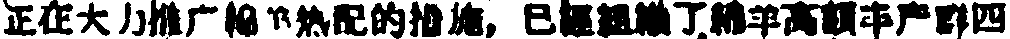正在大力推广綿羊热配的指施，已經組織了綿羊高額丰产群四
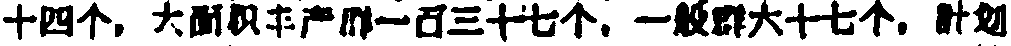十四个，大面积丰产群一百三十七个，一般群六十七个，計划
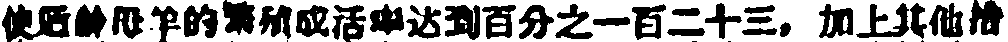使适龄母羊的繁殖成活率达到百分之一百三十三，加上其他措
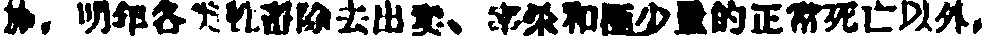施，明年各类社畜除去出卖、宰杀和很少量的正常死亡以外，
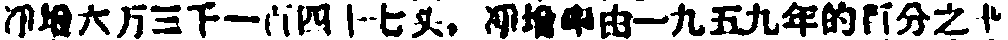淨增六万三千一百四十七头，淨增率由一九五九年的百分之十
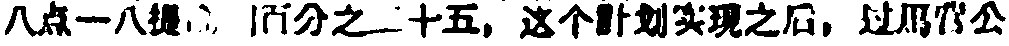八点一八提高 百分之二十五，这个計划实現之后，过馬营公
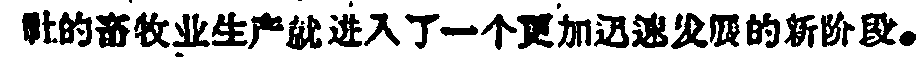社的畜牧业生产就进入了一个更加迅速发展的新阶段。
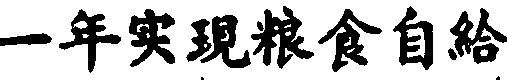一年实現粮食自給
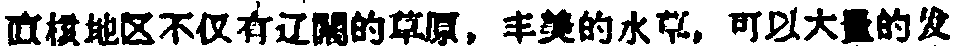直核地区不仅有辽闊的草原，丰美的水草，可以大量的发
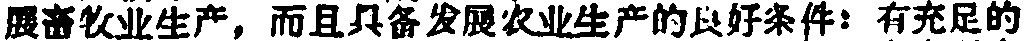展畜牧业生产，而且具备发展农业生产的良好条件：有充足的
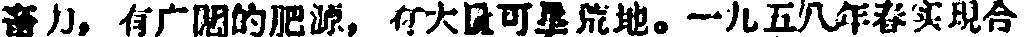畜力，有广闊的肥源，有大量可垦荒地。一九五八年春实現合
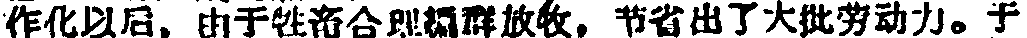作化以后、由于牲畜合理编群放牧，节省出了大批劳动力。于
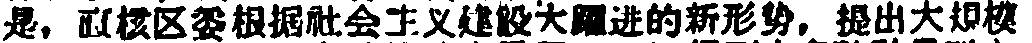是，直核区委根据社会主义建設大躍进的新形势，提出大規模
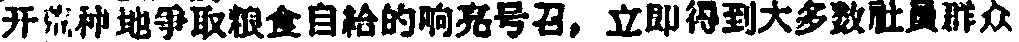开垦种地爭取粮食自給的响亮号召，立即得到大多数社員群众
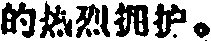的热烈拥护。
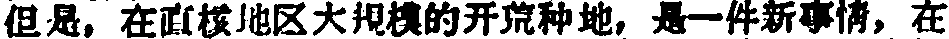但是，在直核地区大規模的开荒种地，是一件新事情，在
